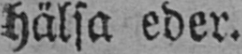hälsa eder.
